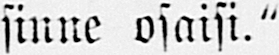sinne osaisi."
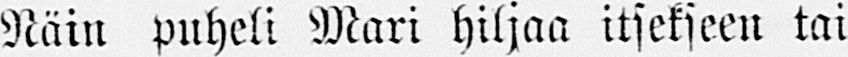Näin puheli Mari hiljaa itsekseen tai
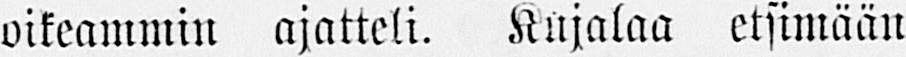oikeammin ajatteli. Kujalaa etsimään
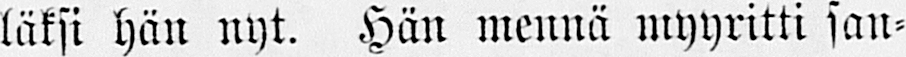läksi hän nyt. Hän mennä myyritti san-
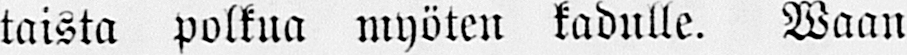taista polkua myöten kadulle. Waan
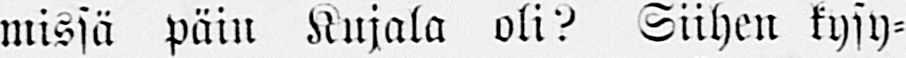missä päin Kujala oli? Siihen kysy-
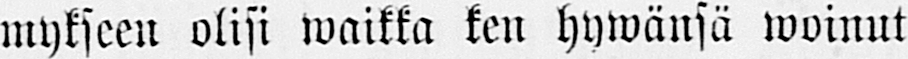mykseen olisi waikka ken hywänsä woinut
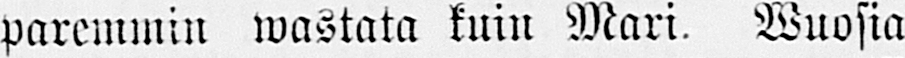paremmin wastata kuin Mari. Wuosia
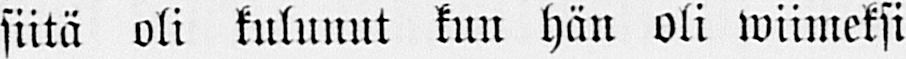siitä oli kulunut kun hän oli wiimeksi
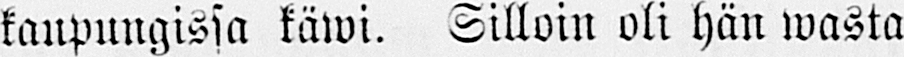kaupungissa käwi. Silloin oli hän wasta
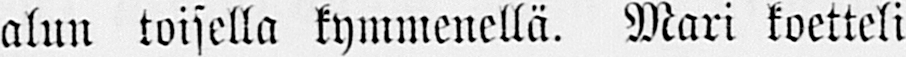alun toisella kymmenellä. Mari koetteli
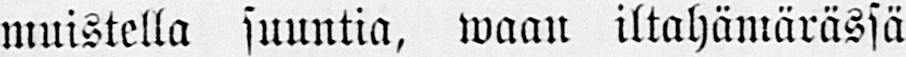muistella suuntia, waan iltahämärässä
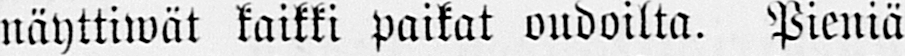näyttiwät kaikki paikat oudoilta. Pieniä
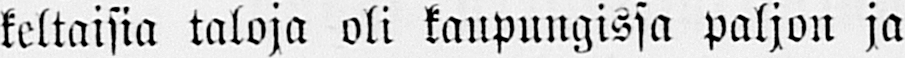keltaisia taloja oli kaupungissa paljon ja
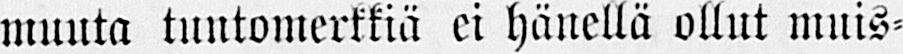muuta tuntomerkkiä ei hänellä ollut muis-
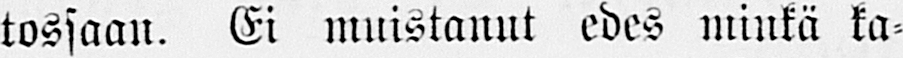tossaan. Ei muistanut edes minkä ka-
